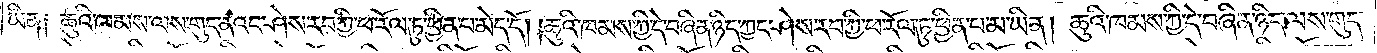ཡིན། ཆུའི་ཁམས་ལས་གུད་ནའང་ཤེས་རབ་ཀྱི་ཕ་རོལ་ཏུ་ཕྱིན་པ་མེད་དོ། །ཆུའི་ཁམས་ཀྱི་དེ་བཞིན་ཉིད་ཀྱང་ཤེས་རབ་ཀྱི་ཕ་རོལ་ཏུ་ཕྱིན་པ་མ་ཡིན། ཆུའི་ཁམས་ཀྱི་དེ་བཞིན་ཉིད་ལས་གུད་
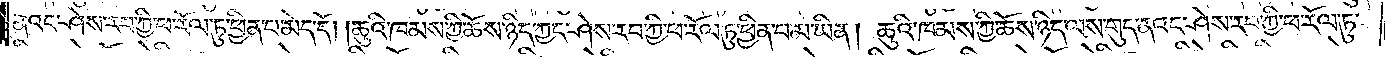ནའང་ཤེས་རབ་ཀྱི་ཕ་རོལ་ཏུ་ཕྱིན་པ་མེད་དོ། །ཆུའི་ཁམས་ཀྱི་ཆོས་ཉིད་ཀྱང་ཤེས་རབ་ཀྱི་ཕ་རོལ་ཏུ་ཕྱིན་པ་མ་ཡིན། ཆུའི་ཁམས་ཀྱི་ཆོས་ཉིད་ལས་གུད་ནའང་ཤེས་རབ་ཀྱི་ཕ་རོལ་ཏུ་
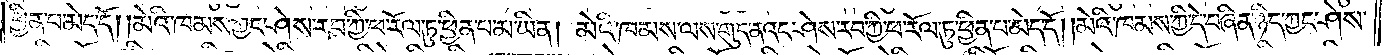ཕྱིན་པ་མེད་དོ། །མེའི་ཁམས་ཀྱང་ཤེས་རབ་ཀྱི་ཕ་རོལ་ཏུ་ཕྱིན་པ་མ་ཡིན། མེའི་ཁམས་ལས་གུད་ནའང་ཤེས་རབ་ཀྱི་ཕ་རོལ་ཏུ་ཕྱིན་པ་མེད་དོ། །མེའི་ཁམས་ཀྱི་དེ་བཞིན་ཉིད་ཀྱང་ཤེས་
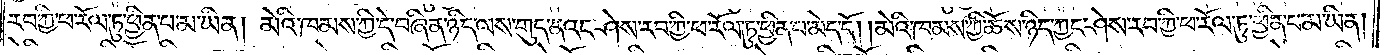རབ་ཀྱི་ཕ་རོལ་ཏུ་ཕྱིན་པ་མ་ཡིན། མེའི་ཁམས་ཀྱི་དེ་བཞིན་ཉིད་ལས་གུད་ནའང་ཤེས་རབ་ཀྱི་ཕ་རོལ་ཏུ་ཕྱིན་པ་མེད་དོ། །མེའི་ཁམས་ཀྱི་ཆོས་ཉིད་ཀྱང་ཤེས་རབ་ཀྱི་ཕ་རོལ་ཏུ་ཕྱིན་པ་མ་ཡིན།
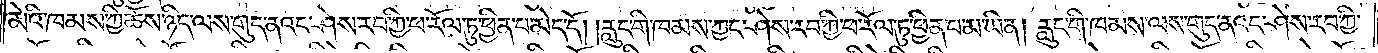མེའི་ཁམས་ཀྱི་ཆོས་ཉིད་ལས་གུད་ནའང་ཤེས་རབ་ཀྱི་ཕ་རོལ་ཏུ་ཕྱིན་པ་མེད་དོ། །རླུང་གི་ཁམས་ཀྱང་ཤེས་རབ་ཀྱི་ཕ་རོལ་ཏུ་ཕྱིན་པ་མ་ཡིན། རླུང་གི་ཁམས་ལས་གུད་ནའང་ཤེས་རབ་ཀྱི་
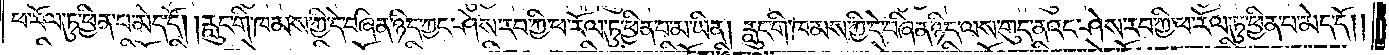ཕ་རོལ་ཏུ་ཕྱིན་པ་མེད་དོ། །རླུང་གི་ཁམས་ཀྱི་དེ་བཞིན་ཉིད་ཀྱང་ཤེས་རབ་ཀྱི་ཕ་རོལ་ཏུ་ཕྱིན་པ་མ་ཡིན། རླུང་གི་ཁམས་ཀྱི་དེ་བཞིན་ཉིད་ལས་གུད་ནའང་ཤེས་རབ་ཀྱི་ཕ་རོལ་ཏུ་ཕྱིན་པ་མེད་དོ༎
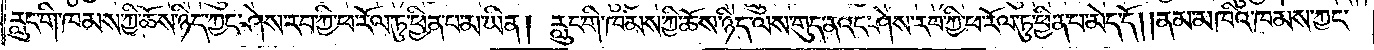རླུང་གི་ཁམས་ཀྱི་ཆོས་ཉིད་ཀྱང་ཤེས་རབ་ཀྱི་ཕ་རོལ་ཏུ་ཕྱིན་པ་མ་ཡིན། རླུང་གི་ཁམས་ཀྱི་ཆོས་ཉིད་ལས་གུད་ནའང་ཤེས་རབ་ཀྱི་ཕ་རོལ་ཏུ་ཕྱིན་པ་མེད་དོ། །ནམ་མཁའི་ཁམས་ཀྱང་
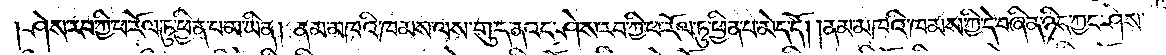ཤེས་རབ་ཀྱི་ཕ་རོལ་ཏུ་ཕྱིན་པ་མ་ཡིན། ནམ་མཁའི་ཁམས་ལས་གུད་ནའང་ཤེས་རབ་ཀྱི་ཕ་རོལ་ཏུ་ཕྱིན་པ་མེད་དོ། །ནམ་མཁའི་ཁམས་ཀྱི་དེ་བཞིན་ཉིད་ཀྱང་ཤེས་
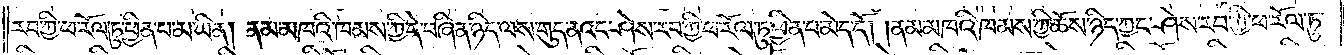རབ་ཀྱི་ཕ་རོལ་ཏུ་ཕྱིན་པ་མ་ཡིན། ནམ་མཁའི་ཁམས་ཀྱི་དེ་བཞིན་ཉིད་ལས་གུད་ནའང་ཤེས་རབ་ཀྱི་ཕ་རོལ་ཏུ་ཕྱིན་པ་མེད་དོ། །ནམ་མཁའི་ཁམས་ཀྱི་ཆོས་ཉིད་ཀྱང་ཤེས་རབ་ཀྱི་ཕ་རོལ་ཏུ་
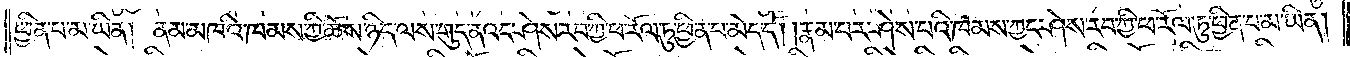ཕྱིན་པ་མ་ཡིན། ནམ་མཁའི་ཁམས་ཀྱི་ཆོས་ཉིད་ལས་གུད་ནའང་ཤེས་རབ་ཀྱི་ཕ་རོལ་ཏུ་ཕྱིན་པ་མེད་དོ། །རྣམ་པར་ཤེས་པའི་ཁམས་ཀྱང་ཤེས་རབ་ཀྱི་ཕ་རོལ་ཏུ་ཕྱིན་པ་མ་ཡིན།
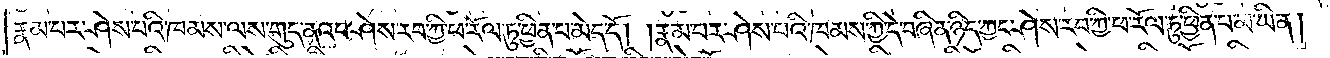རྣམ་པར་ཤེས་པའི་ཁམས་ལས་གུད་ནའང་ཤེས་རབ་ཀྱི་ཕ་རོལ་ཏུ་ཕྱིན་པ་མེད་དོ། །རྣམ་པར་ཤེས་པའི་ཁམས་ཀྱི་དེ་བཞིན་ཉིད་ཀྱང་ཤེས་རབ་ཀྱི་ཕ་རོལ་ཏུ་ཕྱིན་པ་མ་ཡིན།
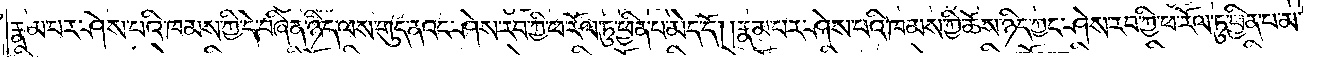རྣམ་པར་ཤེས་པའི་ཁམས་ཀྱི་དེ་བཞིན་ཉིད་ལས་གུད་ནའང་ཤེས་རབ་ཀྱི་ཕ་རོལ་ཏུ་ཕྱིན་པ་མེད་དོ། །རྣམ་པར་ཤེས་པའི་ཁམས་ཀྱི་ཆོས་ཉིད་ཀྱང་ཤེས་རབ་ཀྱི་ཕ་རོལ་ཏུ་ཕྱིན་པ་མ་
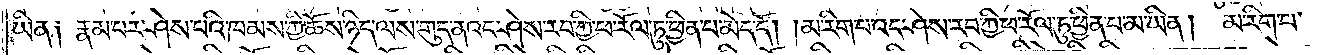ཡིན། རྣམ་པར་ཤེས་པའི་ཁམས་ཀྱི་ཆོས་ཉིད་ལས་གུད་ནའང་ཤེས་རབ་ཀྱི་ཕ་རོལ་ཏུ་ཕྱིན་པ་མེད་དོ། །མ་རིག་པའང་ཤེས་རབ་ཀྱི་ཕ་རོལ་ཏུ་ཕྱིན་པ་མ་ཡིན། མ་རིག་པ་
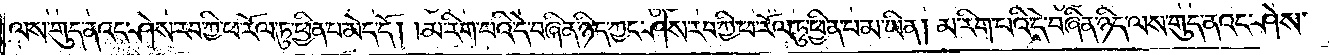ལས་གུད་ནའང་ཤེས་རབ་ཀྱི་ཕ་རོལ་ཏུ་ཕྱིན་པ་མེད་དོ། །མ་རིག་པའི་དེ་བཞིན་ཉིད་ཀྱང་ཤེས་རབ་ཀྱི་ཕ་རོལ་ཏུ་ཕྱིན་པ་མ་ཡིན། མ་རིག་པའི་དེ་བཞིན་ཉིད་ལས་གུད་ནའང་ཤེས་
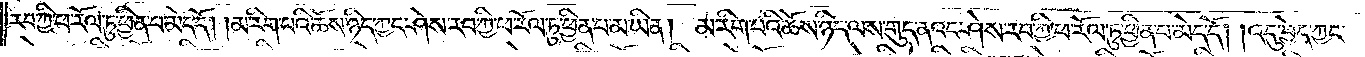རབ་ཀྱི་ཕ་རོལ་ཏུ་ཕྱིན་པ་མེད་དོ། །མ་རིག་པའི་ཆོས་ཉིད་ཀྱང་ཤེས་རབ་ཀྱི་ཕ་རོལ་ཏུ་ཕྱིན་པ་མ་ཡིན། མ་རིག་པའི་ཆོས་ཉིད་ལས་གུད་ནའང་ཤེས་རབ་ཀྱི་ཕ་རོལ་ཏུ་ཕྱིན་པ་མེད་དོ། །འདུ་བྱེད་ཀྱང་
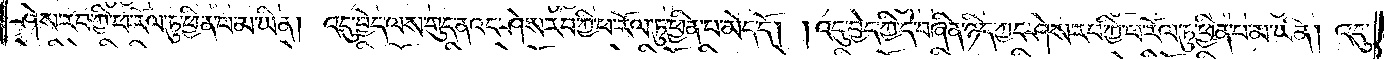ཤེས་རབ་ཀྱི་ཕ་རོལ་ཏུ་ཕྱིན་པ་མ་ཡིན། འདུ་བྱེད་ལས་གུད་ནའང་ཤེས་རབ་ཀྱི་ཕ་རོལ་ཏུ་ཕྱིན་པ་མེད་དོ། །འདུ་བྱེད་ཀྱི་དེ་བཞིན་ཉིད་ཀྱང་ཤེས་རབ་ཀྱི་ཕ་རོལ་ཏུ་ཕྱིན་པ་མ་ཡིན། འདུ་
